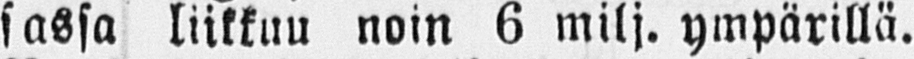sassa liikkuu noin 6 milj. ympärillä.
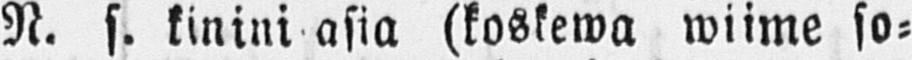N. s. kinini asia (koskewa wiime so-
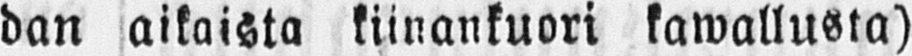dan aikaista kiinankuori kawallusta)
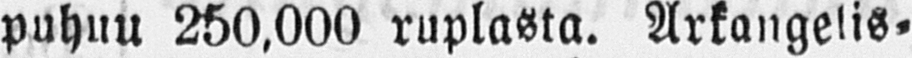puhuu 250.000 ruplasta. Arkangelis-
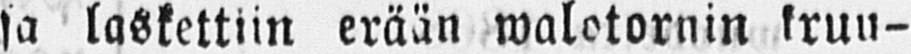sa laskettiin erään walotornin kruu-
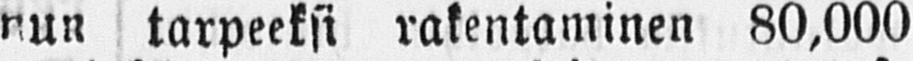nun tarpeeksi rakentaminen 80,000
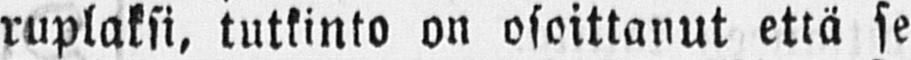ruplaksi, tutkinto on osoittanut että se
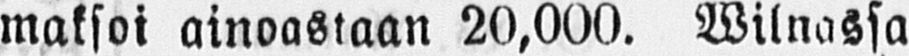maksoi ainoastaan 20,000. Wilnassa
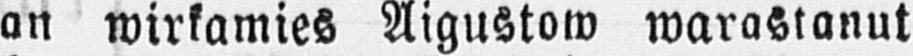on wirkamies Aigustow warastanut
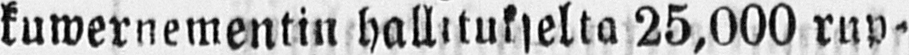kuwernementin hallitukselta 25,000 rup-
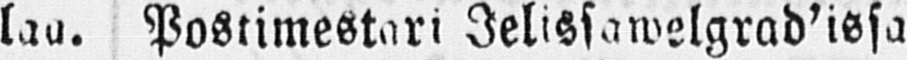laa. Postimestari Jelissawelgrad'issa
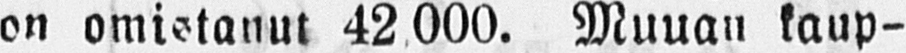on omistanut 42 000. Muuan kaup-
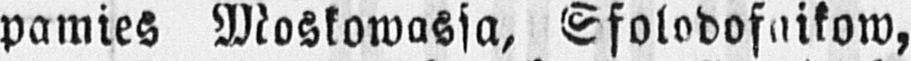pamies Moskowassa, Sfolodofaikow,
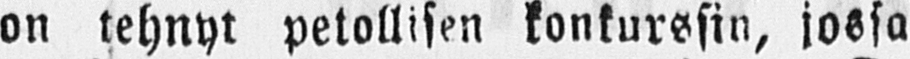on tehnyt petollisen konkurssin, jossa
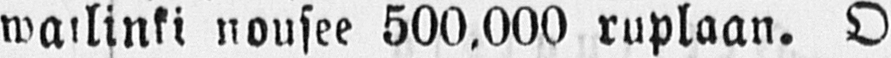wailinki nousee 500.000 ruplaan. O
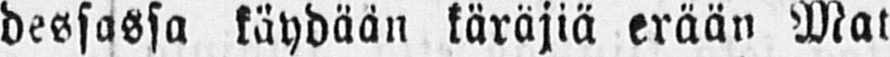dessassa käydään käräjiä erään Mat
